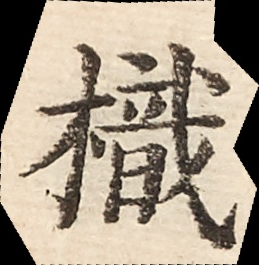枳
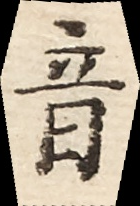音
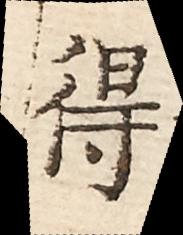得
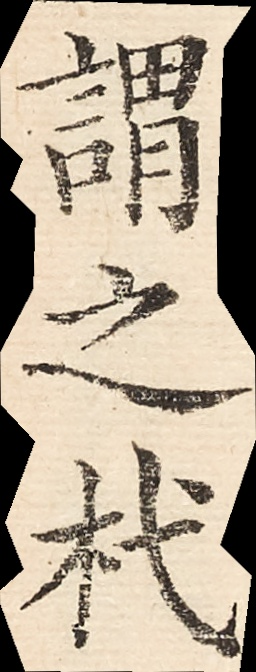謂之杙
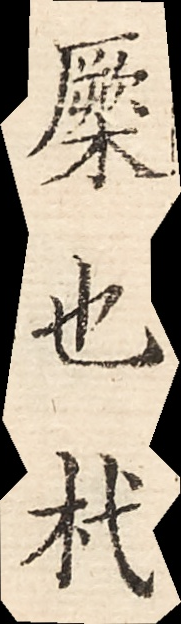鬘也杙
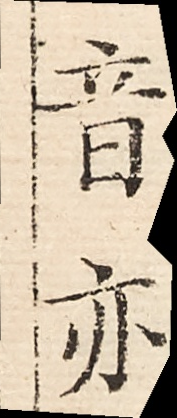音亦
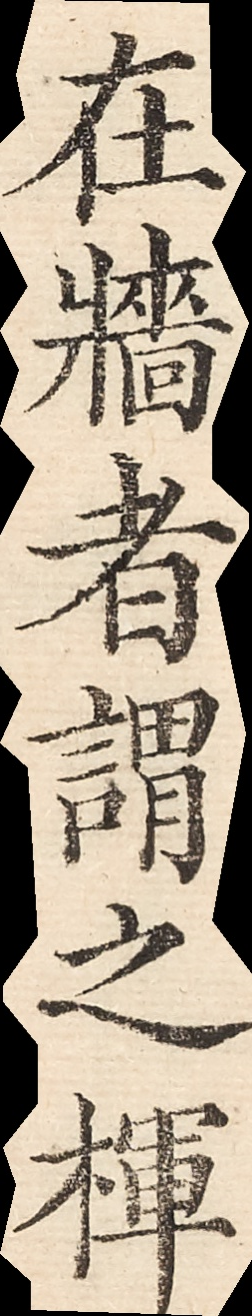在牆者謂之楎
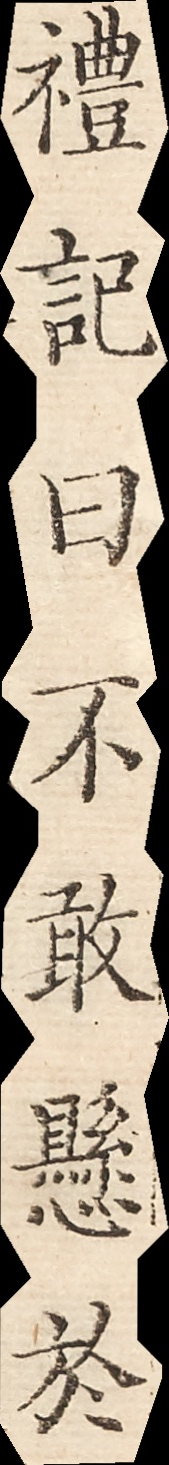禮記曰不敢縣於
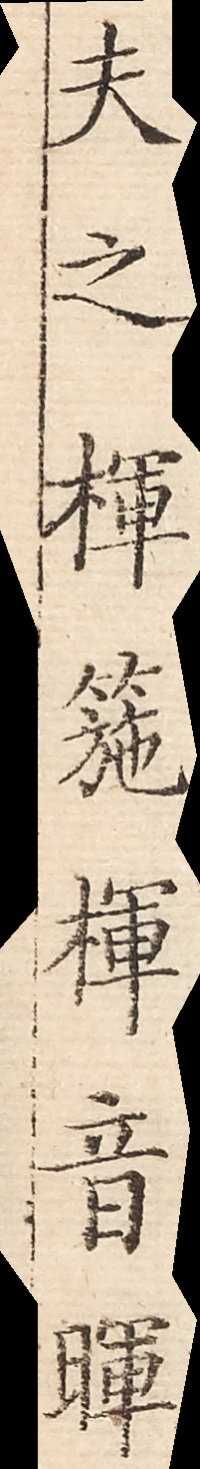夫之楎椸楎音楎
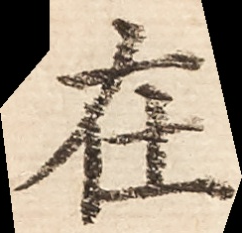在
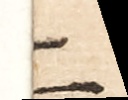二
